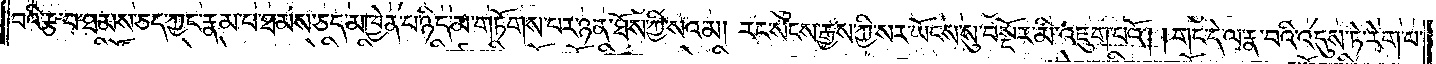བའི་རྩ་བ་ཐམས་ཅད་ཀྱང་རྣམ་པ་ཐམས་ཅད་མཁྱེན་པ་ཉིད་མ་གཏོགས་པར་ཉན་ཐོས་ཀྱི་སའམ། རང་སངས་རྒྱས་ཀྱི་སར་ཡོངས་སུ་བསྔོར་མི་འཇུག་པའོ། །གང་དེ་ལ་རྣ་བའི་འདུས་ཏེ་རེག་པ་
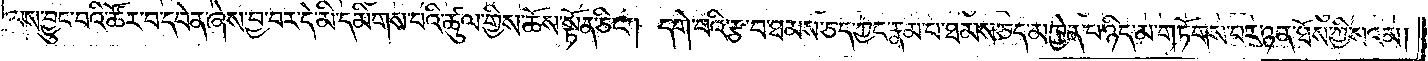ལས་བྱུང་བའི་ཚོར་བ་དབེན་ཞེས་བྱ་བར་དེ་མི་དམིགས་པའི་ཚུལ་གྱིས་ཆོས་སྟོན་ཅིང༌།དགེ་བའི་རྩ་བ་ཐམས་ཅད་ཀྱང་རྣམ་པ་ཐམས་ཅད་མཁྱེན་པ་ཉིད་མ་གཏོགས་པར་ཉན་ཐོས་ཀྱི་སའམ།
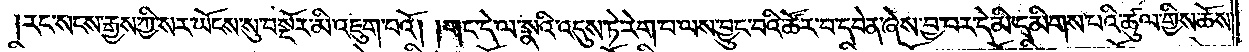རང་སངས་རྒྱས་ཀྱི་སར་ཡོངས་སུ་བསྔོར་མི་འཇུག་པའོ། །གང་དེ་ལ་སྣའི་འདུས་ཏེ་རེག་པ་ལས་བྱུང་བའི་ཚོར་བ་དབེན་ཞེས་བྱ་བར་དེ་མི་དམིགས་པའི་ཚུལ་གྱིས་ཆོས་
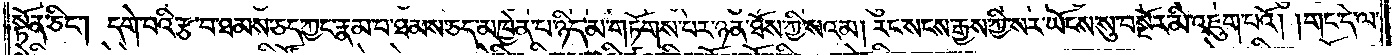སྟོན་ཅིང༌། དགེ་བའི་རྩ་བ་ཐམས་ཅད་ཀྱང་རྣམ་པ་ཐམས་ཅད་མཁྱེན་པ་ཉིད་མ་གཏོགས་པར་ཉན་ཐོས་ཀྱི་སའམ། རང་སངས་རྒྱས་ཀྱི་སར་ཡོངས་སུ་བསྔོར་མི་འཇུག་པའོ། །གང་དེ་ལ་
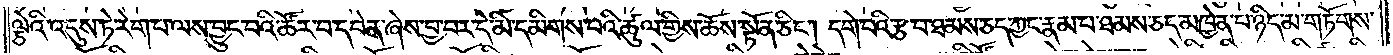ལྕེའི་འདུས་ཏེ་རེག་པ་ལས་བྱུང་བའི་ཚོར་བ་དབེན་ཞེས་བྱ་བར་དེ་མི་དམིགས་པའི་ཚུལ་གྱིས་ཆོས་སྟོན་ཅིང༌། དགེ་བའི་རྩ་བ་ཐམས་ཅད་ཀྱང་རྣམ་པ་ཐམས་ཅད་མཁྱེན་པ་ཉིད་མ་གཏོགས་
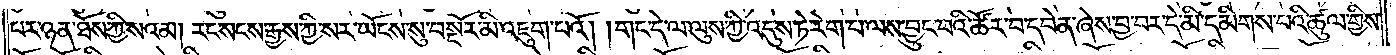པར་ཉན་ཐོས་ཀྱི་སའམ། རང་སངས་རྒྱས་ཀྱི་སར་ཡོངས་སུ་བསྔོར་མི་འཇུག་པའོ། །གང་དེ་ལ་ལུས་ཀྱི་འདུས་ཏེ་རེག་པ་ལས་བྱུང་བའི་ཚོར་བ་དབེན་ཞེས་བྱ་བར་དེ་མི་དམིགས་པའི་ཚུལ་གྱིས་
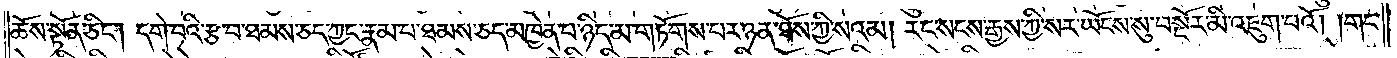ཆོས་སྟོན་ཅིང༌། དགེ་བའི་རྩ་བ་ཐམས་ཅད་ཀྱང་རྣམ་པ་ཐམས་ཅད་མཁྱེན་པ་ཉིད་མ་གཏོགས་པར་ཉན་ཐོས་ཀྱི་སའམ། རང་སངས་རྒྱས་ཀྱི་སར་ཡོངས་སུ་བསྔོར་མི་འཇུག་པའོ། །གང་
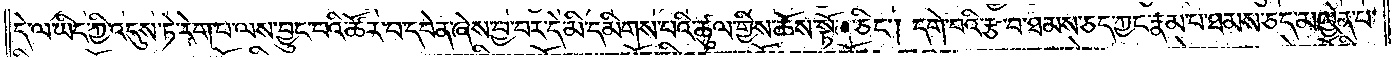དེ་ལ་ཡིད་ཀྱི་འདུས་ཏེ་རེག་པ་ལས་བྱུང་བའི་ཚོར་བ་དབེན་ཞེས་བྱ་བར་དེ་མི་དམིགས་པའི་ཚུལ་གྱིས་ཆོས་སྟོན་ཅིང༌། དགེ་བའི་རྩ་བ་ཐམས་ཅད་ཀྱང་རྣམ་པ་ཐམས་ཅད་མཁྱེན་པ་
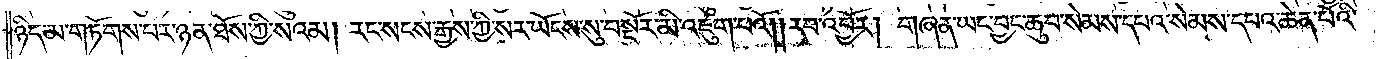ཉིད་མ་གཏོགས་པར་ཉན་ཐོས་ཀྱི་སའམ། རང་སངས་རྒྱས་ཀྱི་སར་ཡོངས་སུ་བསྔོར་མི་འཇུག་པའོ། །རབ་འབྱོར། གཞན་ཡང་བྱང་ཆུབ་སེམས་དཔའ་སེམས་དཔའ་ཆེན་པོའི་
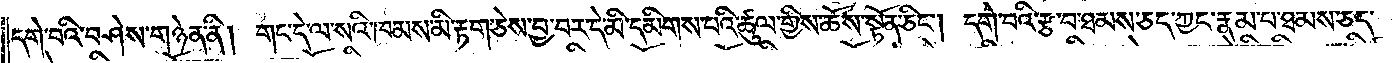དགེ་བའི་བཤེས་གཉེན་ནི། གང་དེ་ལ་སའི་ཁམས་མི་རྟག་ཅེས་བྱ་བར་དེ་མི་དམིགས་པའི་ཚུལ་གྱིས་ཆོས་སྟོན་ཅིང༌། དགེ་བའི་རྩ་བ་ཐམས་ཅད་ཀྱང་རྣམ་པ་ཐམས་ཅད་
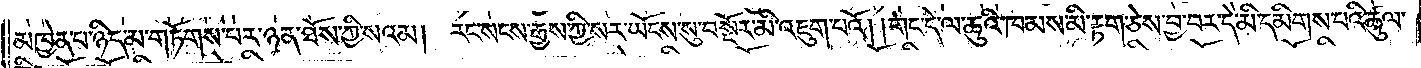མཁྱེན་པ་ཉིད་མ་གཏོགས་པར་ཉན་ཐོས་ཀྱི་སའམ། རང་སངས་རྒྱས་ཀྱི་སར་ཡོངས་སུ་བསྔོར་མི་འཇུག་པའོ། །གང་དེ་ལ་ཆུའི་ཁམས་མི་རྟག་ཅེས་བྱ་བར་དེ་མི་དམིགས་པའི་ཚུལ་
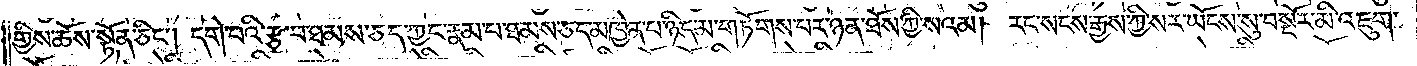གྱིས་ཆོས་སྟོན་ཅིང༌། དགེ་བའི་རྩ་བ་ཐམས་ཅད་ཀྱང་རྣམ་པ་ཐམས་ཅད་མཁྱེན་པ་ཉིད་མ་གཏོགས་པར་ཉན་ཐོས་ཀྱི་སའམ། རང་སངས་རྒྱས་ཀྱི་སར་ཡོངས་སུ་བསྔོར་མི་འཇུག་
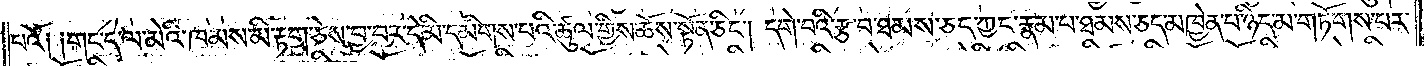པའོ༑ ༑གང་དེ་ལ་མེའི་ཁམས་མི་རྟག་ཅེས་བྱ་བར་དེ་མི་དམིགས་པའི་ཚུལ་གྱིས་ཆོས་སྟོན་ཅིང༌། དགེ་བའི་རྩ་བ་ཐམས་ཅད་ཀྱང་རྣམ་པ་ཐམས་ཅད་མཁྱེན་པ་ཉིད་མ་གཏོགས་པར་
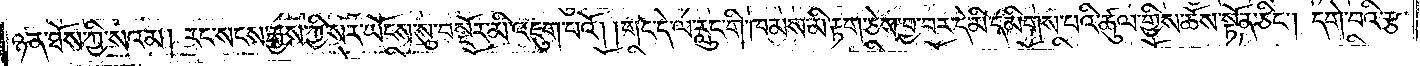ཉན་ཐོས་ཀྱི་སའམ། རང་སངས་རྒྱས་ཀྱི་སར་ཡོངས་སུ་བསྔོར་མི་འཇུག་པའོ། །གང་དེ་ལ་རླུང་གི་ཁམས་མི་རྟག་ཅེས་བྱ་བར་དེ་མི་དམིགས་པའི་ཚུལ་གྱིས་ཆོས་སྟོན་ཅིང༌། དགེ་བའི་རྩ་
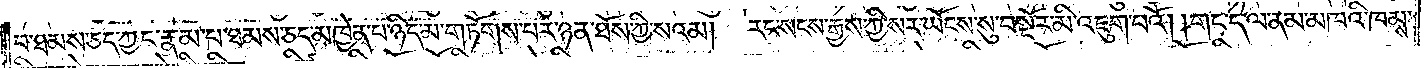པ་ཐམས་ཅད་ཀྱང་རྣམ་པ་ཐམས་ཅད་མཁྱེན་པ་ཉིད་མ་གཏོགས་པར་ཉན་ཐོས་ཀྱི་སའམ། རང་སངས་རྒྱས་ཀྱི་སར་ཡོངས་སུ་བསྔོར་མི་འཇུག་པའོ། །གང་དེ་ལ་ནམ་མཁའི་ཁམས་
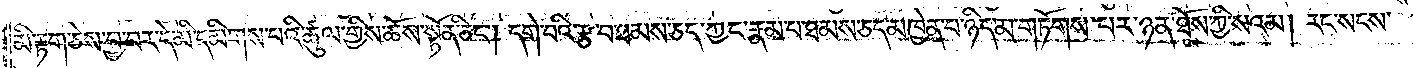མི་རྟག་ཅེས་བྱ་བར་དེ་མི་དམིགས་པའི་ཚུལ་གྱིས་ཆོས་སྟོན་ཅིང༌། དགེ་བའི་རྩ་བ་ཐམས་ཅད་ཀྱང་རྣམ་པ་ཐམས་ཅད་མཁྱེན་པ་ཉིད་མ་གཏོགས་པར་ཉན་ཐོས་ཀྱི་སའམ། རང་སངས་
